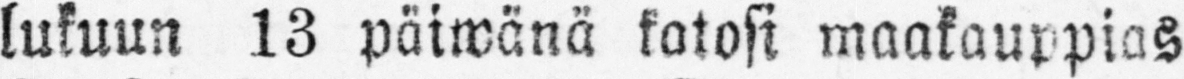lukuun 13 päiwänä katosi maakauppias
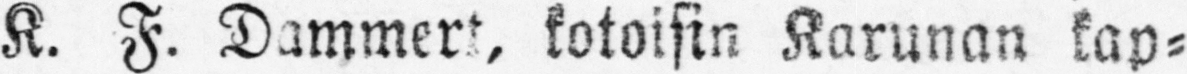K. F. Dammert kotoisin Karunan kap-
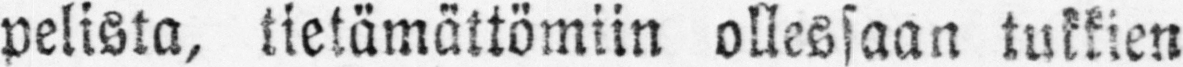pelista, tietämättömiin ollessaan tukkien
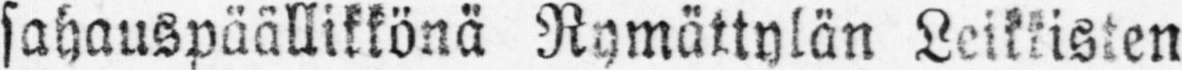sahauspäällikkönä Rymättylän Leikkisten
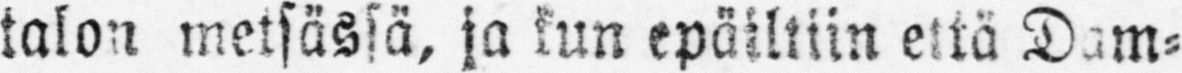talon metsässä, ja kun epäiltiin että Dam-
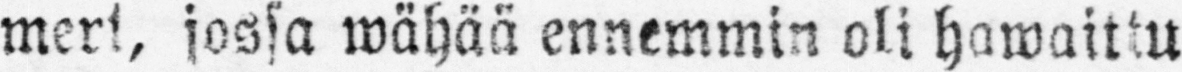mert, jossa wähää ennemmin oli hawaittu
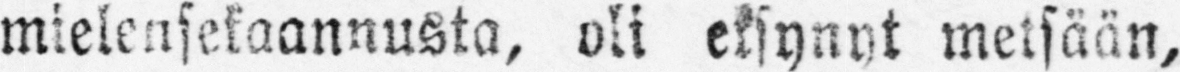mielensekaannusta, oli eksynyt metsään,
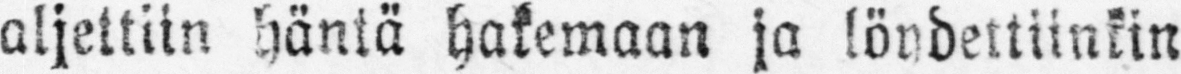aljettiin häntä hakemaan ja löndettiinkin
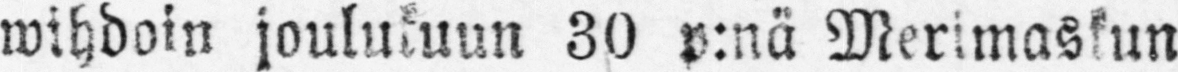wihdoin joulukuun 30 p:nä Merimaskun
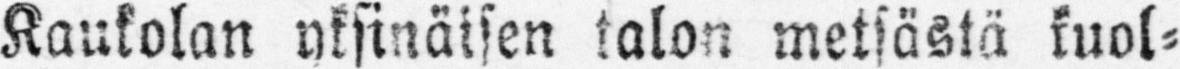Kaukolan yksinäisen talon metsästä kuol-
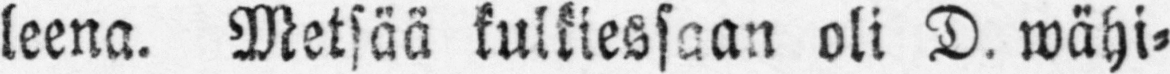leena. Metsää kulkiessaan oli D. wähi-
